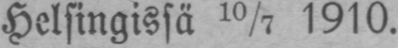Helsingissä 10/7 1910.
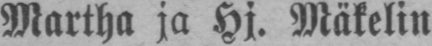Martha ja Hj. Mäkelin.
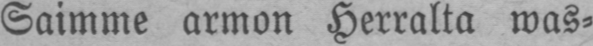Saimme armon Herralta was-
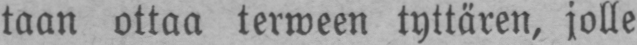taan ottaa terween tyttären, jolle
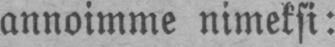annoimme nimeksi:
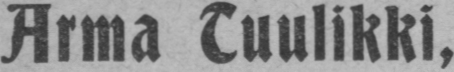Arma Tuulikki,
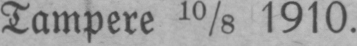Tampere 10/8 1910.
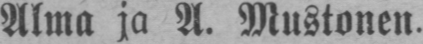Alma ja A. Mustonen.
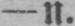—n.
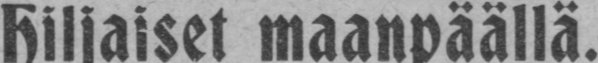Hiljaiset maapäällä
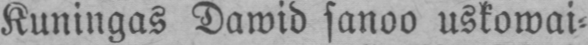Kuningas Dawid sanoo uskowai-
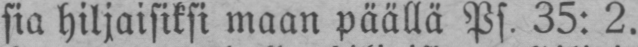sia hiljaisiksi maan päällä Ps. 35: 2.
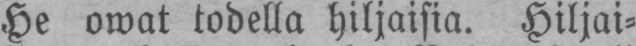He owat todella hiljaisia. Hiljai-
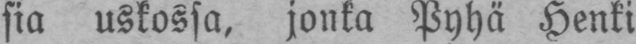sia uskossa, jonka Pyhä Henki
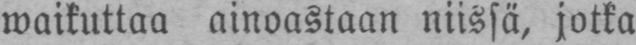waikuttaa ainoastaan niissä, jotka
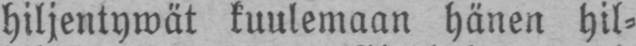hiljentywät kuulemaan hänen hil-
